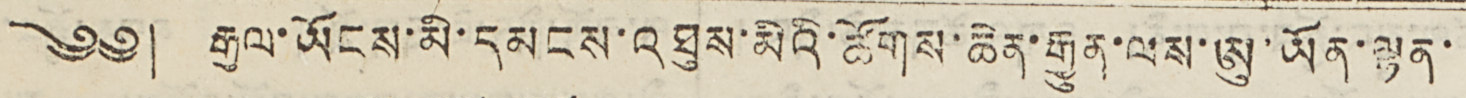༄༅། རྒྱལ་ཡོངས་མི་དམངས་འཐུས་མིའི་ཚོགས་ཆེན་རྒྱུན་ལས་ཨུ་ཡོན་ལྷན་
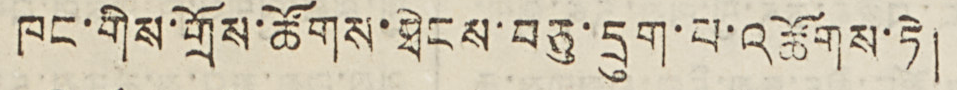ཁང་གིས་གྲོས་ཚོགས་ཐེངས་བཅུ་དྲུག་པ་འཚོགས་ཏེ།
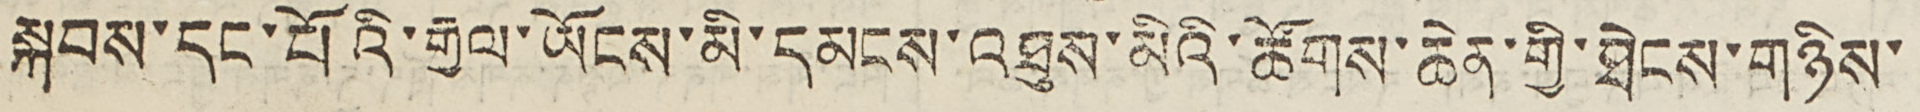སྐབས་དང་པོའི་རྒྱལ་ཡོངས་མི་དམངས་འཐུས་མིའི་ཚོགས་ཆེན་གྱི་ཐེངས་གཉིས་
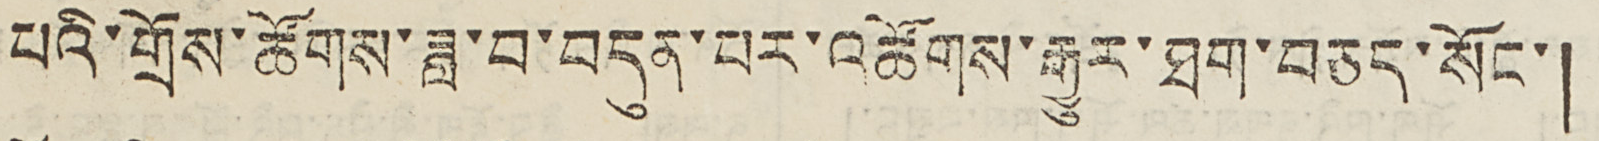པའི་གྲོས་ཚོགས་ཟླ་བ་བདུན་པར་འཚོགས་རྒྱུར་ཐག་བཅད་སོང་།
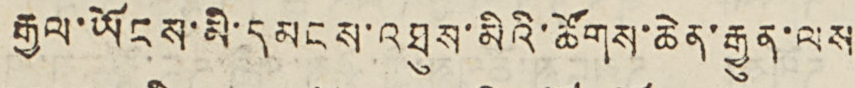རྒྱལ་ཡོངས་མི་དམངས་འཐུས་མིའི་ཚོགས་ཆེན་རྒྱུན་ལས
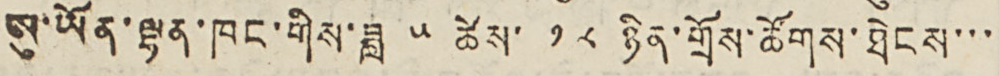ཨུ་ཡོན་ལྷན་ཁང་གིས་ཟླ ༥ ཚེས་ ༡༨ ཉིན་གྲོས་ཚོགས་ཐེངས་་་
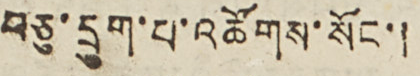བཅུ་དྲུག་པ་འཚོགས་སོང་།
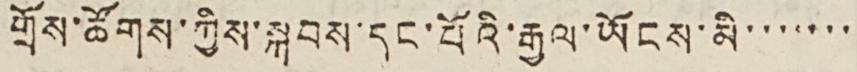གྲོས་ཚོགས་ཀྱིས་སྐབས་དང་པོའི་རྒྱལ་ཡོངས་མི་་་་་་་
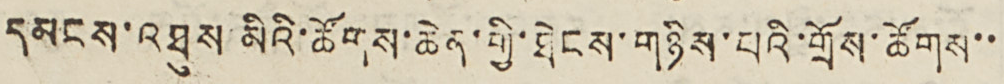དམངས་འཐུས་མིའི་ཚོགས་ཆེན་གྱི་ཐེངས་གཉིས་པའི་གྲོས་ཚོགས་་
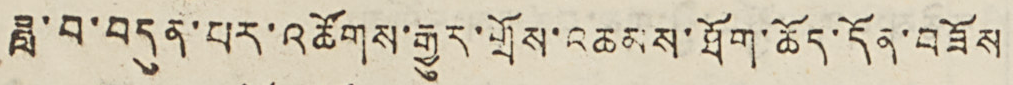ཟླ་བ་བདུན་པར་འཚོགས་རྒྱུར་གྲོས་འཆམས་ཐོག་ཆོད་དོན་བཟོས
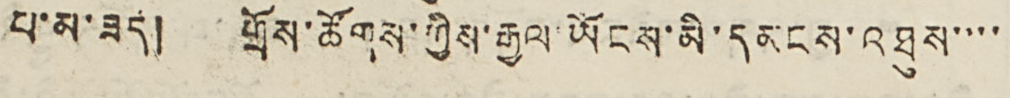པ་མ་ཟད། གྲོས་ཚོགས་ཀྱིས་རྒྱལ་ཡོངས་མི་དམངས་འཐུས་་་་
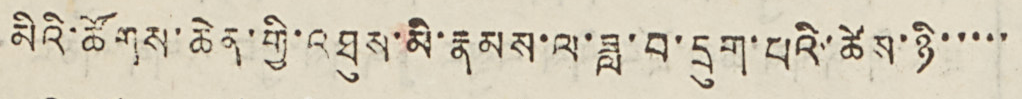མིའི་ཚོགས་ཆེན་གྱི་འཐུས་མི་རྣམས་ལ་ཟླ་བ་དྲུག་པའི་ཚེས་ཉི་་་་་
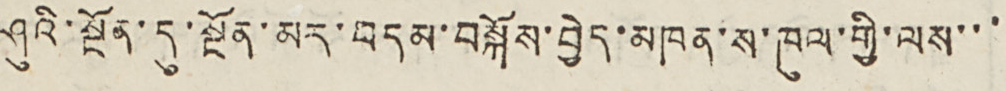ཤུའི་སྔོན་དུ་སྔོན་མར་བདམ་བསྐོས་བྱེད་མཁན་ས་ཁུལ་གྱི་ལས་་་
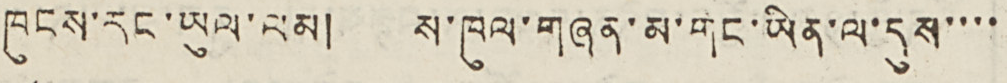ཁུངས་རང་ཡུལ་ལམ། ས་ཁུལ་གཞན་མ་གང་ཡིན་ལ་དུས་་་་
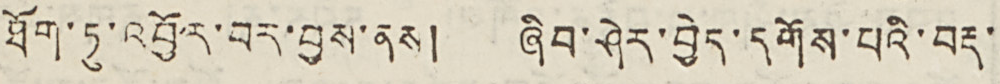ཐོག་ཏུ་འབྱོར་བར་བྱས་ནས། ཞིབ་ཤེར་བྱེད་དགོས་པའི་བརྡ་
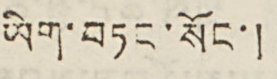ཡིག་བཏང་སོང་།
